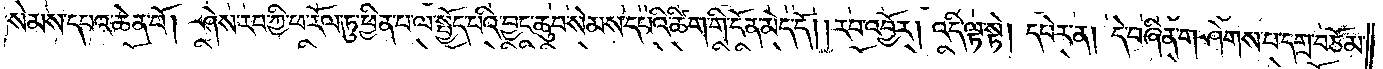སེམས་དཔའ་ཆེན་པོ། ཤེས་རབ་ཀྱི་ཕ་རོལ་ཏུ་ཕྱིན་པ་ལ་སྤྱོད་པའི་བྱང་ཆུབ་སེམས་དཔའི་ཚིག་གི་དོན་མེད་དོ། །རབ་འབྱོར། འདི་ལྟ་སྟེ། དཔེར་ན། དེ་བཞིན་གཤེགས་པ་དགྲ་བཅོམ་
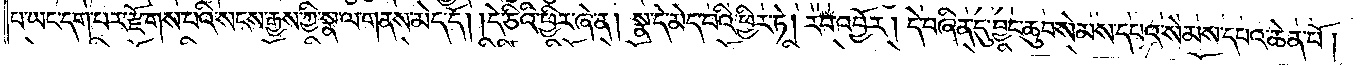པ་ཡང་དག་པར་རྫོགས་པའི་སངས་རྒྱས་ཀྱི་སྣ་ལ་གནས་མེད་དོ། །དེ་ཅིའི་ཕྱིར་ཞེ་ན། སྣ་དེ་མེད་པའི་ཕྱིར་ཏེ། རབ་འབྱོར། དེ་བཞིན་དུ་བྱང་ཆུབ་སེམས་དཔའ་སེམས་དཔའ་ཆེན་པོ།
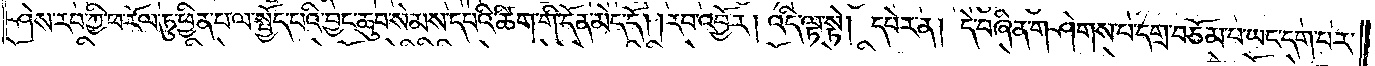ཤེས་རབ་ཀྱི་ཕ་རོལ་ཏུ་ཕྱིན་པ་ལ་སྤྱོད་པའི་བྱང་ཆུབ་སེམས་དཔའི་ཚིག་གི་དོན་མེད་དེ། །རབ་འབྱོར། འདི་ལྟ་སྟེ། དཔེར་ན། དེ་བཞིན་གཤེགས་པ་དགྲ་བཅོམ་པ་ཡང་དག་པར་
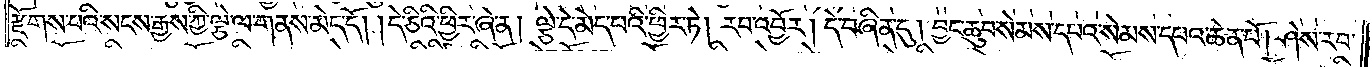རྫོགས་པའི་སངས་རྒྱས་ཀྱི་ལྕེ་ལ་གནས་མེད་དོ། །དེ་ཅིའི་ཕྱིར་ཞེ་ན། ལྕེ་དེ་མེད་པའི་ཕྱིར་ཏེ། རབ་འབྱོར། དེ་བཞིན་དུ། བྱང་ཆུབ་སེམས་དཔའ་སེམས་དཔའ་ཆེན་པོ། ཤེས་རབ་
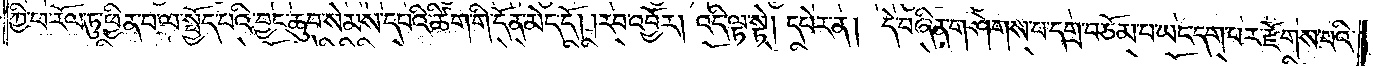ཀྱི་ཕ་རོལ་ཏུ་ཕྱིན་པ་ལ་སྤྱོད་པའི་བྱང་ཆུབ་སེམས་དཔའི་ཚིག་གི་དོན་མེད་དོ། །རབ་འབྱོར། འདི་ལྟ་སྟེ་དཔེར་ན། དེ་བཞིན་གཤེགས་པ་དགྲ་བཅོམ་པ་ཡང་དག་པར་རྫོགས་པའི་
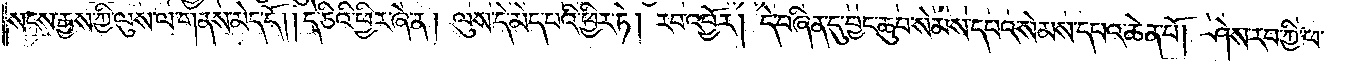སངས་རྒྱས་ཀྱི་ལུས་ལ་གནས་མེད་དོ། །དེ་ཅིའི་ཕྱིར་ཞེ་ན། ལུས་དེ་མེད་པའི་ཕྱིར་ཏེ། རབ་འབྱོར། དེ་བཞིན་དུ་བྱང་ཆུབ་སེམས་དཔའ་སེམས་དཔའ་ཆེན་པོ། ཤེས་རབ་ཀྱི་ཕ་
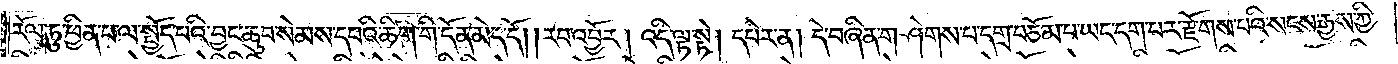རོལ་ཏུ་ཕྱིན་པ་ལ་སྤྱོད་པའི་བྱང་ཆུབ་སེམས་དཔའི་ཚིག་གི་དོན་མེད་དོ། །རབ་འབྱོར། འདི་ལྟ་སྟེ། དཔེར་ན། དེ་བཞིན་གཤེགས་པ་དགྲ་བཅོམ་པ་ཡང་དག་པར་རྫོགས་པའི་སངས་རྒྱས་ཀྱི་
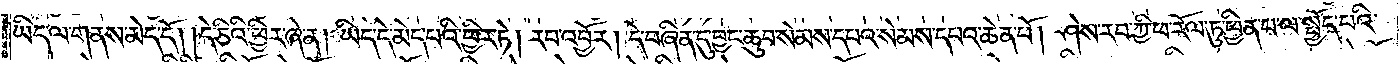ཡིད་ལ་གནས་མེད་དོ། །དེ་ཅིའི་ཕྱིར་ཞེ་ན། ཡིད་དེ་མེད་པའི་ཕྱིར་ཏེ། རབ་འབྱོར། དེ་བཞིན་དུ་བྱང་ཆུབ་སེམས་དཔའ་སེམས་དཔའ་ཆེན་པོ། ཤེས་རབ་ཀྱི་ཕ་རོལ་ཏུ་ཕྱིན་པ་ལ་སྤྱོད་པའི་
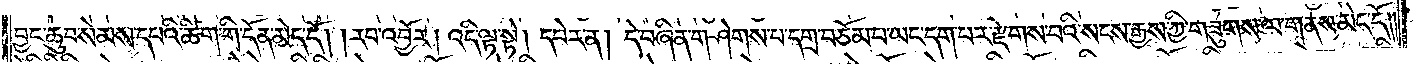བྱང་ཆུབ་སེམས་དཔའི་ཚིག་གི་དོན་མེད་དོ། །རབ་འབྱོར། འདི་ལྟ་སྟེ། དཔེར་ན། དེ་བཞིན་གཤེགས་པ་དགྲ་བཅོམ་པ་ཡང་དག་པར་རྫོགས་པའི་སངས་རྒྱས་ཀྱི་གཟུགས་ལ་གནས་མེད་དོ༎
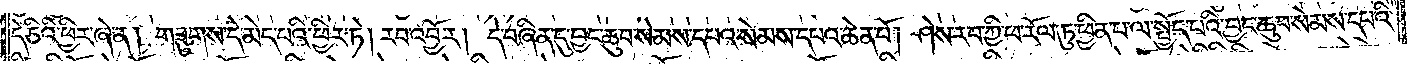དེ་ཅིའི་ཕྱིར་ཞེ་ན། གཟུགས་དེ་མེད་པའི་ཕྱིར་ཏེ། རབ་འབྱོར། དེ་བཞིན་དུ་བྱང་ཆུབ་སེམས་དཔའ་སེམས་དཔའ་ཆེན་པོ། ཤེས་རབ་ཀྱི་ཕ་རོལ་ཏུ་ཕྱིན་པ་ལ་སྤྱོད་པའི་བྱང་ཆུབ་སེམས་དཔའི་
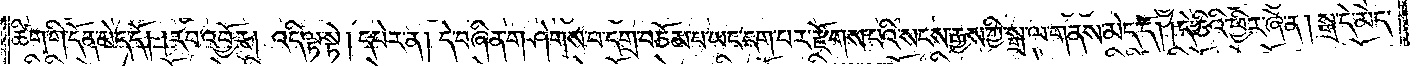ཚིག་གི་དོན་མེད་དོ། །རབ་འབྱོར། འདི་ལྟ་སྟེ། དཔེར་ན། དེ་བཞིན་གཤེགས་པ་དགྲ་བཅོམ་པ་ཡང་དག་པར་རྫོགས་པའི་སངས་རྒྱས་ཀྱི་སྒྲ་ལ་གནས་མེད་དོ། །དེ་ཅིའི་ཕྱིར་ཞེ་ན། སྒྲ་དེ་མེད་
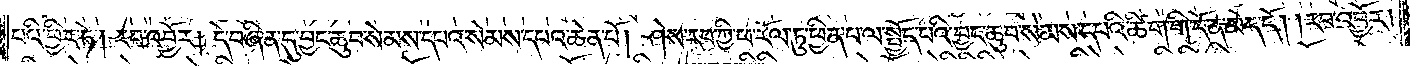པའི་ཕྱིར་ཏེ། རབ་འབྱོར། དེ་བཞིན་དུ་བྱང་ཆུབ་སེམས་དཔའ་སེམས་དཔའ་ཆེན་པོ། ཤེས་རབ་ཀྱི་ཕ་རོལ་ཏུ་ཕྱིན་པ་ལ་སྤྱོད་པའི་བྱང་ཆུབ་སེམས་དཔའི་ཚིག་གི་དོན་མེད་དོ། །རབ་འབྱོར།
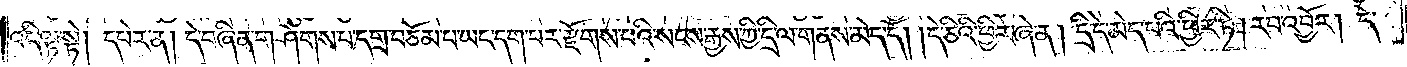འདི་ལྟ་སྟེ། དཔེར་ན། དེ་བཞིན་གཤེགས་པ་དགྲ་བཅོམ་པ་ཡང་དག་པར་རྫོགས་པའི་སངས་རྒྱས་ཀྱི་དྲི་ལ་གནས་མེད་དོ། །དེ་ཅིའི་ཕྱིར་ཞེ་ན། དྲི་དེ་མེད་པའི་ཕྱིར་ཏེ། །རབ་འབྱོར། དེ་
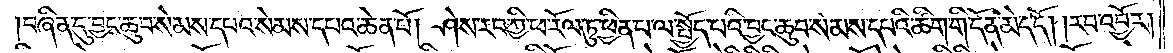བཞིན་དུ་བྱང་ཆུབ་སེམས་དཔའ་སེམས་དཔའ་ཆེན་པོ། ཤེས་རབ་ཀྱི་ཕ་རོལ་ཏུ་ཕྱིན་པ་ལ་སྤྱོད་པའི་བྱང་ཆུབ་སེམས་དཔའི་ཚིག་གི་དོན་མེད་དོ། །རབ་འབྱོར།
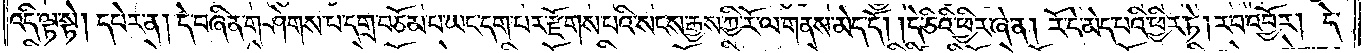འདི་ལྟ་སྟེ། དཔེར་ན། དེ་བཞིན་གཤེགས་པ་དགྲ་བཅོམ་པ་ཡང་དག་པར་རྫོགས་པའི་སངས་རྒྱས་ཀྱི་རོ་ལ་གནས་མེད་དོ། །དེ་ཅིའི་ཕྱིར་ཞེ་ན། རོ་དེ་མེད་པའི་ཕྱིར་ཏེ། རབ་འབྱོར། དེ་
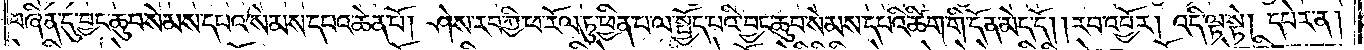བཞིན་དུ་བྱང་ཆུབ་སེམས་དཔའ་སེམས་དཔའ་ཆེན་པོ། ཤེས་རབ་ཀྱི་ཕ་རོལ་ཏུ་ཕྱིན་པ་ལ་སྤྱོད་པའི་བྱང་ཆུབ་སེམས་དཔའི་ཚིག་གི་དོན་མེད་དོ། །རབ་འབྱོར། འདི་ལྟ་སྟེ། དཔེར་ན།
